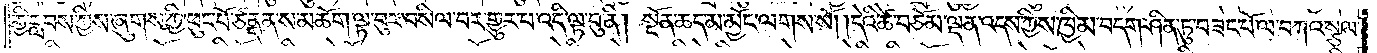གྱི་རླབས་ཀྱིས་ཞུགས་ཀྱི་ཕུང་པོ་ཙནྡན་ས་མཆོག་ལྟ་བུར་བསིལ་བར་གྱུར་པ་འདི་ལྟ་བུ་ནི། སྔོན་ཆད་མ་མྱོང་ལགས་སོ། །དེའི་ཚེ་བཅོམ་ལྡན་འདས་ཀྱིས་ཁྱིམ་བདག་ཤིན་ཏུ་བཟང་པོ་ལ་བཀའ་སྩལ་
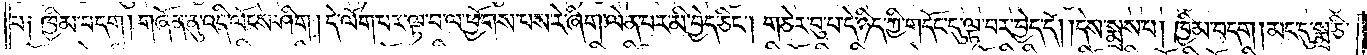པ༑ ཁྱིམ་བདག། གཞོན་ནུ་འདི་ལོངས་ཤིག །དེ་ལོག་པར་ལྟ་བ་ལ་ཕྱོགས་པས་རེ་ཞིག་ལེན་པར་མི་བྱེད་ཅིང༌། གཅེར་བུ་པ་དེ་ཉིད་ཀྱི་གདོང་དུ་ལྟ་བར་བྱེད་དོ། །དེས་སྨྲས་པ། ཁྱིམ་བདག། མང་དུ་སྨྲ་ཅི་
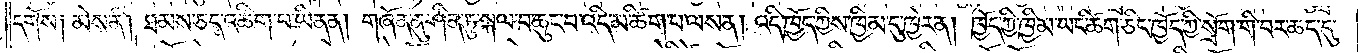དགོས༑ མེས་ནི། ཐམས་ཅད་འཚིག་པ་ཡིན་ན། གཞོན་ནུ་ཤིན་ཏུ་སྐལ་བ་ཆུང་བ་འདི་མ་ཚིག་པ་ལས་ན། འདི་ཁྱོད་ཀྱིས་ཁྱིམ་དུ་ཁྱེར་ན། ཁྱོད་ཀྱི་ཁྱིམ་ཡང་ཚིག་ཅིང་ཁྱོད་ཀྱི་སྲོག་གི་བར་ཆད་དུ་
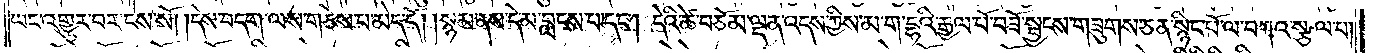ཡང་འགྱུར་བར་ངེས་སོ། །དེས་བདག་ལས་གཅེས་པ་མེད་དོ། །སྙམ་ནས་དེ་མ་བླངས་པ་དང༌། དེའི་ཚེ་བཅོམ་ལྡན་འདས་ཀྱིས་མ་ག་དྷའི་རྒྱལ་པོ་བཟོ་སྦྱངས་གཟུགས་ཅན་སྙིང་པོ་ལ་བཀའ་སྩལ་པ་
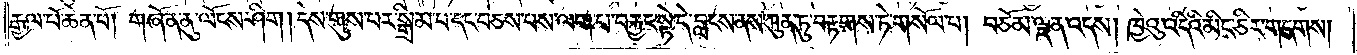རྒྱལ་པོ་ཆེན་པོ། གཞོན་ནུ་ལོངས་ཤིག །དེས་གུས་པར་སྒྲིམ་པ་དང་བཅས་པས་ལག་པ་བརྐྱང་སྟེ་དེ་བླངས་ནས་ཀུན་ཏུ་བརྟགས་ཏེ་གསོལ་པ། བཅོམ་ལྡན་འདས། ཁྱེའུ་འདིའི་མིང་ཅིར་གདགས།
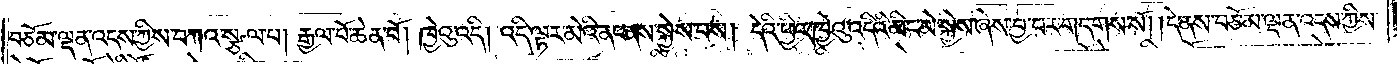བཅོམ་ལྡན་འདས་ཀྱིས་བཀའ་སྩལ་པ། རྒྱལ་པོ་ཆེན་པོ། ཁྱེའུ་འདི། འདི་ལྟར་མེའི་ནང་ནས་སྐྱེས་པས། དེའི་ཕྱིར་ཁྱེའུ་འདིའི་མིང་མེ་སྐྱེས་ཞེས་བྱ་བར་གདགས་སོ། །དེ་ནས་བཅོམ་ལྡན་འདས་ཀྱིས་
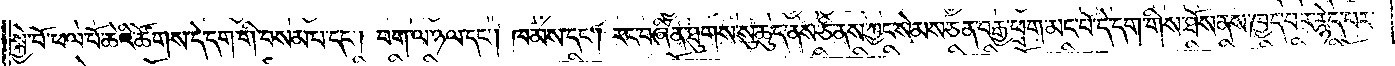སྐྱེ་བོ་ཕལ་པོ་ཆེའི་ཚོགས་དེ་དག་གི་བསམ་པ་དང༌། བག་ལ་ཉལ་དང༌། ཁམས་དང༌། རང་བཞིན་ཐུགས་སུ་ཆུད་ནས་ཅི་ནས་ཀྱང་སེམས་ཅན་བརྒྱ་ཕྲག་མང་པོ་དེ་དག་གིས་ཐོས་ནས་ཁྱད་པར་རྙེད་པར་
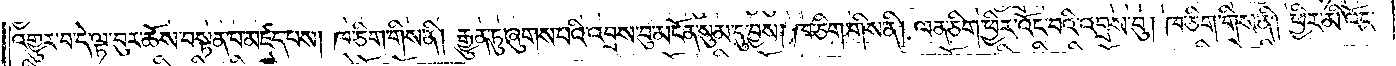འགྱུར་བ་དེ་ལྟ་བུར་ཆོས་བསྟན་པ་མཛད་པས། ཁ་ཅིག་གིས་ནི། རྒྱུན་ཏུ་ཞུགས་པའི་འབྲས་བུ་མངོན་སུམ་དུ་བྱས། ཁ་ཅིག་གིས་ནི། ལན་ཅིག་ཕྱིར་འོང་བའི་འབྲས་བུ། ཁ་ཅིག་གིས་ནི། ཕྱིར་མི་འོང་
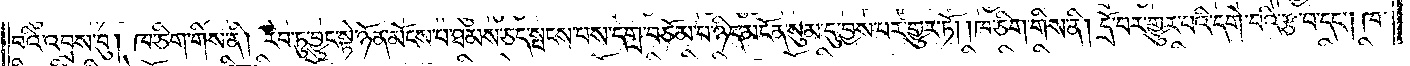བའི་འབྲས་བུ། ཁ་ཅིག་གིས་ནི། རབ་ཏུ་བྱུང་སྟེ་ཉོན་མོངས་པ་ཐམས་ཅད་སྤངས་པས་དགྲ་བཅོམ་པ་ཉིད་མངོན་སུམ་དུ་བྱས་པར་གྱུར་ཏོ། །ཁ་ཅིག་གིས་ནི། དྲོ་བར་གྱུར་པའི་དགེ་བའི་རྩ་བ་དང༌། ཁ་
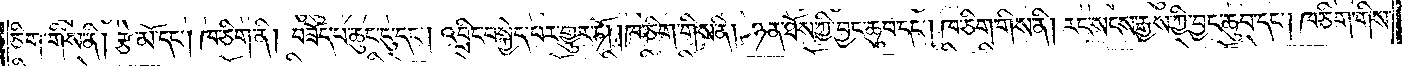ཅིག་གིས་ནི། རྩེ་མོ་དང༌། ཁ་ཅིག་ནི། བཟོད་པ་ཆུང་ངུ་དང༌། འབྲིང་བསྐྱེད་པར་གྱུར་ཏོ། །ཁ་ཅིག་གིས་ནི། ཉན་ཐོས་ཀྱི་བྱང་ཆུབ་དང༌། ཁ་ཅིག་གིས་ནི། རང་སངས་རྒྱས་ཀྱི་བྱང་ཆུབ་དང༌། ཁ་ཅིག་གིས་
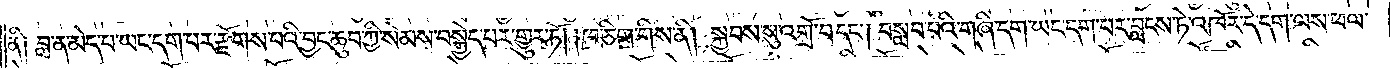ནི། བླ་ན་མེད་པ་ཡང་དག་པར་རྫོགས་པའི་བྱང་ཆུབ་ཀྱི་སེམས་བསྐྱེད་པར་གྱུར་ཏོ། །ཁ་ཅིག་གིས་ནི། སྐྱབས་སུ་འགྲོ་བ་དང༌། བསླབ་པའི་གཞི་དག་ཡང་དག་པར་བླངས་ཏེ་འཁོར་དེ་དག་ལས་ཕལ་
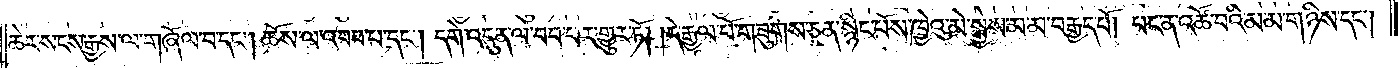ཆེར་སངས་རྒྱས་ལ་གཞོལ་བ་དང༌། ཆོས་ལ་འབབ་པ་དང༌། དགེ་འདུན་ལ་བབ་པར་གྱུར་ཏོ། །དེ་རྒྱལ་པོ་གཟུགས་ཅན་སྙིང་པོས་ཁྱེའུ་མེ་སྐྱེས་མ་མ་བརྒྱད་པོ། པང་ན་འཚོ་བའི་མ་མ་གཉིས་དང༌།
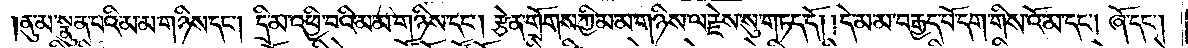ནུ་མ་སྣུན་པའི་མ་མ་གཉིས་དང༌། དྲི་མ་འཕྱི་བའི་མ་མ་གཉིས་དང༌། རྩེན་གྲོགས་ཀྱི་མ་མ་གཉིས་ལ་རྗེས་སུ་གཏད་དོ། །དེ་མ་མ་བརྒྱད་པོ་དག་གིས་འོ་མ་དང༌། ཞོ་དང༌།
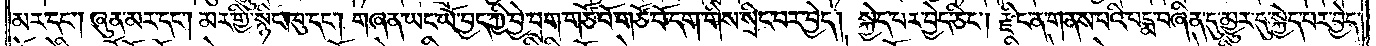མར་དང༌། ཞུན་མར་དང༌། མར་གྱི་སྙིང་ཁུ་དང༌། གཞན་ཡང་ཡོ་བྱད་ཀྱི་བྱེ་བྲག་གཙོ་བོ་གཙོ་བོ་དག་གིས་སྲིང་བར་བྱེད། སྐྱེད་པར་བྱེད་ཅིང༌། རྫིང་ན་གནས་པའི་པདྨ་བཞིན་དུ་མྱུར་དུ་སྐྱེད་པར་བྱེད་
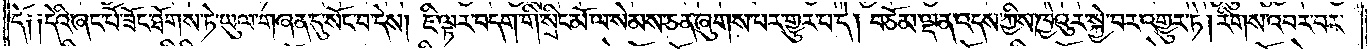དོ༑༑དེའི་ཞང་པོ་ཟོང་ཐོགས་ཏེ་ཡུལ་གཞན་དུ་སོང་བ་དེས། ཇི་ལྟར་བདག་གི་སྲིང་མོ་ལ་སེམས་ཅན་ཞུགས་པར་གྱུར་པ་དེ། བཅོམ་ལྡན་འདས་ཀྱིས་ཁྱེའུར་སྐྱེ་བར་འགྱུར་ཏེ། རིགས་འབར་བར་
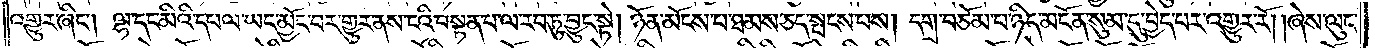འགྱུར་ཞིང༌། ལྷ་དང་མིའི་དཔལ་ཡང་མྱོང་བར་གྱུར་ནས་ངའི་བསྟན་པ་ལ་རབ་ཏུ་བྱུང་སྟེ། ཉོན་མོངས་པ་ཐམས་ཅད་སྤངས་པས། དགྲ་བཅོམ་པ་ཉིད་མངོན་སུམ་དུ་བྱེད་པར་འགྱུར་རོ། །ཞེས་ལུང་
